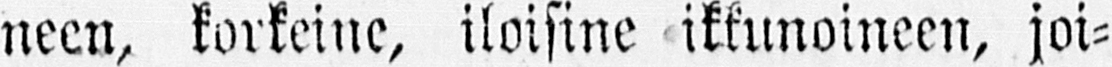neen, korkeine, iloisine ikkunoineen, joi-
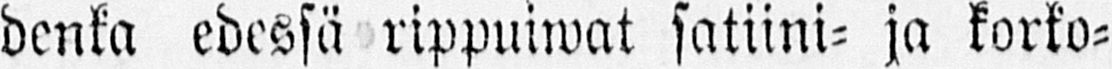denka edessä rippuiwat satiini- ja korko-
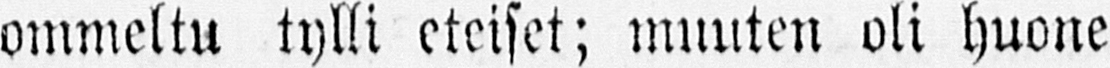ommeltu tylli eteiset; muuten oli huone
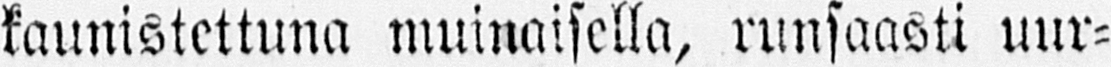kaunistettuna muinaisella, runsaasti uur-
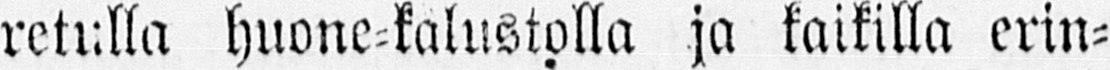retulla huone-kalustolla ja kaikilla erin-
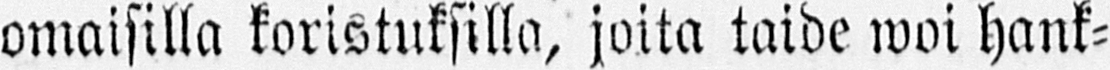omaisilla koristuksilla, joita taide woi hank-
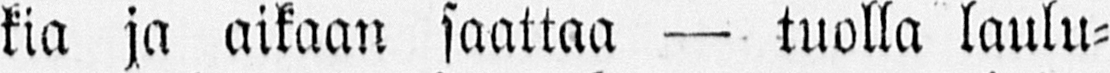kia ja aikaan saattaa — tuolla laulu-
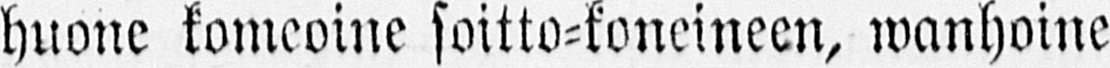huone komeoine soitto-koneineen, wanhoine
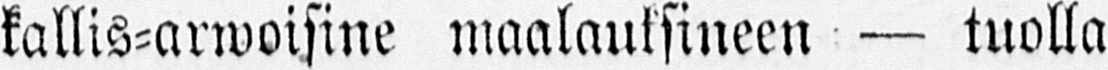kallis-arwoisine maalauksineen — tuolla
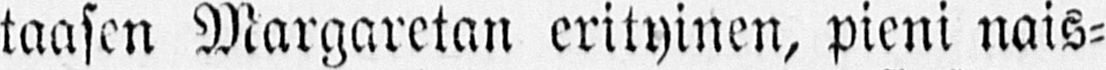taasen Margaretan erityinen, pieni nais-
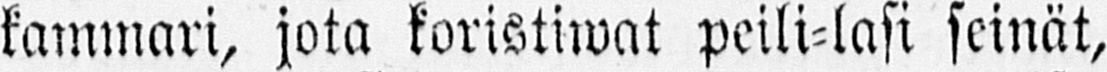kammari, jota koristiwat peili-lasi seinät,
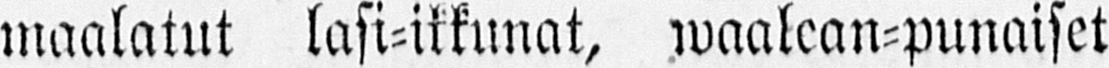maalatut lasi-ikkunat, waalean-punaiset
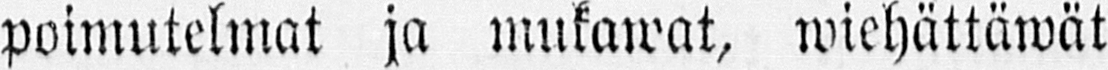poimutelmat ja mukawat, wiehättäwät
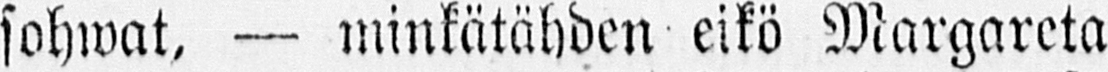sohwat, — minkätähden eikö Margareta
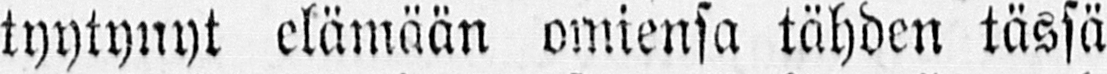tyytynyt elämään omiensa tähden tässä
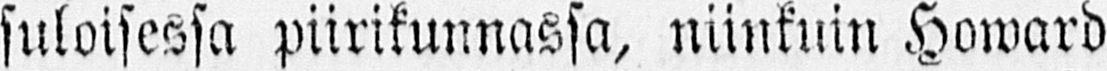suloisessa piirikunnassa, niinkuin Howard
